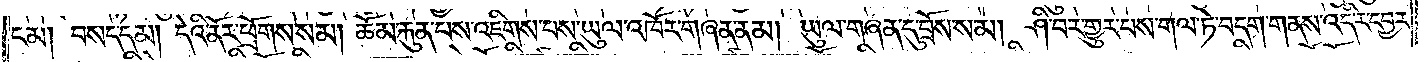ངམ། བསད་དམ། དེའི་ནོར་ཕྲོགས་སམ། ཆོམ་རྐུན་པས་འཇིགས་པས་ཡུལ་འཁོར་གཞན་ནམ། ཡུལ་གཞན་དུ་བྲོས་སམ། ཤི་བར་གྱུར་པས་གལ་ཏེ་བདག་གནས་འདིར་དབྱར་
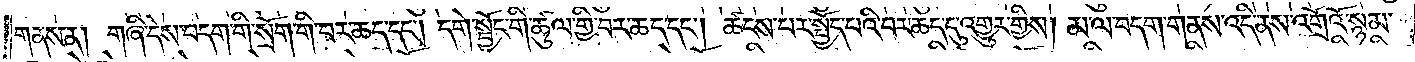གནས་ན། གཞི་དེས་བདག་གི་སྲོག་གི་བར་ཆད་དང༌། དགེ་སྦྱོང་གི་ཚུལ་གྱི་བར་ཆད་དང༌། ཚངས་པར་སྤྱོད་པའི་བར་ཆད་དུ་འགྱུར་གྱིས། མ་ལ་བདག་གནས་འདི་ནས་འགྲོའོ་སྙམ་
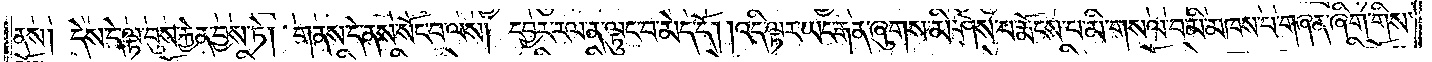ནས། དེས་དེ་ལྟ་བུས་རྐྱེན་བྱས་ཏེ། གནས་དེ་ནས་སོང་བ་ལས། དབྱར་རལ་ན་ལྟུང་བ་མེད་དོ། །འདི་ལྟར་ཡང་རྒན་ཞུགས་མི་ཤེས་པ་རྨོངས་པ་མི་གསལ་བ་མི་མཁས་པ་གཞན་ཞིག་གིས་
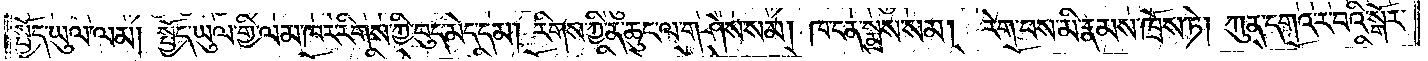སྤྱོད་ཡུལ་ལམ། སྤྱོད་ཡུལ་གྱི་ལམ་ཁར་རིགས་ཀྱི་བུད་མེད་དམ། རིགས་ཀྱི་ན་ཆུང་ལ་གཤེས་སམ། ཁ་ངན་སྨྲས་སམ། རེག་པས་མི་རྣམས་ཁྲོས་ཏེ། ཀུན་དགའ་ར་བའི་སྒོར་
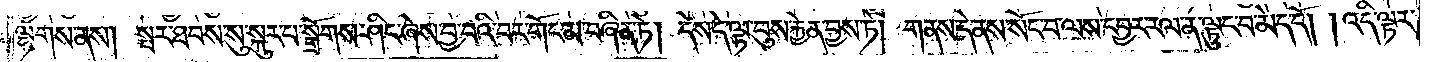ལྷགས་ནས། སྤར་ཐབས་སུ་སྐུར་བ་སྒྲོགས་ཤིང་ཞེས་བྱ་བའི་བར་གོང་མ་བཞིན་ཏེ། དེས་དེ་ལྟ་བུས་རྐྱེན་བྱས་ཏེ། གནས་དེ་ནས་སོང་བ་ལས་དབྱར་རལ་ན་ལྟུང་བ་མེད་དོ། །འདི་ལྟར་
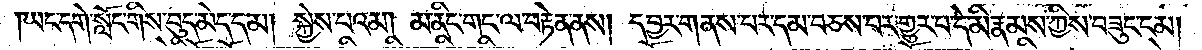ཡང་དགེ་སློང་གིས་བུད་མེད་དམ། སྐྱེས་པའམ། མ་ནིང་གང་ལ་བརྟེན་ནས། དབྱར་གནས་པར་དམ་བཅས་པར་གྱུར་པ་དེ་མི་རྣམས་ཀྱིས་བཟུང་ངམ།
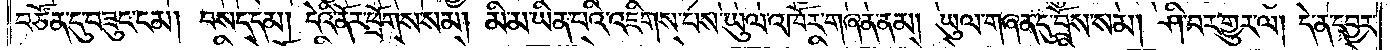བཙོན་དུ་བཟུང་ངམ། བསད་དམ། དེའི་ནོར་ཕྲོགས་སམ། མི་མ་ཡིན་པའི་འཇིགས་པས་ཡུལ་འཁོར་གཞན་ནམ། ཡུལ་གཞན་དུ་བྲོས་སམ། ཤི་བར་གྱུར་ལ། དེ་ན་དབྱར་
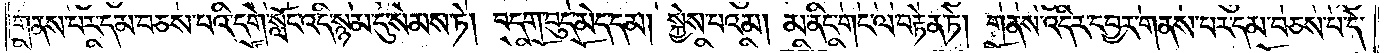གནས་པར་དམ་བཅས་པའི་དགེ་སློང་འདི་སྙམ་དུ་སེམས་ཏེ། བདག་བུད་མེད་དམ། སྐྱེས་པའམ། མ་ནིང་གང་ལ་བརྟེན་ཏེ། གནས་འདིར་དབྱར་གནས་པར་དམ་བཅས་པ་དེ་
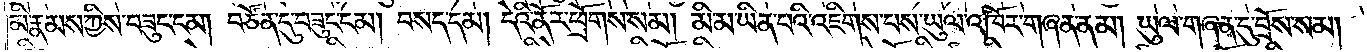མི་རྣམས་ཀྱིས་བཟུང་ངམ། བཙོན་དུ་བཟུང་ངམ། བསད་དམ། དེའི་ནོར་ཕྱོགས་སམ། མི་མ་ཡིན་པའི་འཇིགས་པས་ཡུལ་འཁོར་གཞན་ནམ། ཡུལ་གཞན་དུ་བྲོས་སམ།
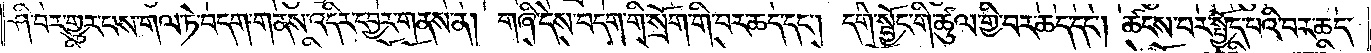ཤི་བར་གྱུར་པས་གལ་ཏེ་བདག་གནས་འདིར་དབྱར་གནས་ན། གཞི་དེས་བདག་གི་སྲོག་གི་བར་ཆད་དང༌། དགེ་སྦྱོང་གི་ཚུལ་གྱི་བར་ཆད་དང༌། ཚངས་པར་སྤྱོད་པའི་བར་ཆད་
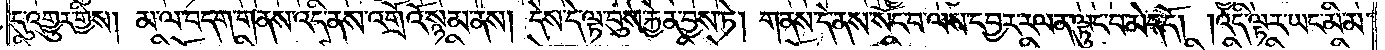དུ་འགྱུར་གྱིས། མ་ལ་བདག་གནས་འདི་ནས་འགྲོའོ་སྙམ་ནས། དེས་དེ་ལྟ་བུས་རྐྱེན་བྱས་ཏེ། གནས་དེ་ནས་སོང་བ་ལས་དབྱར་རལ་ན་ལྟུང་བ་མེད་དོ། །འདི་ལྟར་ཡང་མི་མ་
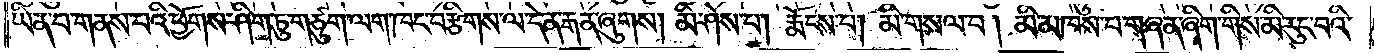ཡིན་པ་གནས་པའི་ཕྱོགས་ཤིག་ཏུ་གཙུག་ལག་ཁང་བརྩིགས་ལ་དེ་ན་རྒན་ཞུགས། མི་ཤེས་པ། རྨོངས་པ། མི་གསལ་བ། མི་མཁས་པ་གཞན་ཞིག་གིས་མི་རུང་བའི་
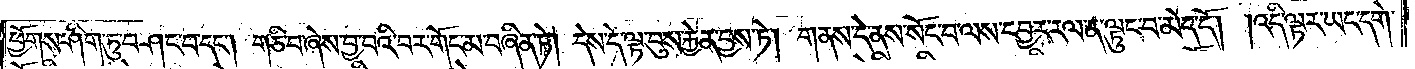ཕྱོགས་ཤིག་ཏུ་བཤང་པ་དང༌། གཅི་བ་ཞེས་བྱ་བའི་བར་གོང་མ་བཞིན་ཏེ། དེས་དེ་ལྟ་བུས་རྐྱེན་བྱས་ཏེ། གནས་དེ་ནས་སོང་བ་ལས་དབྱར་རལ་ན་ལྟུང་བ་མེད་དོ། །འདི་ལྟར་ཡང་དགེ་
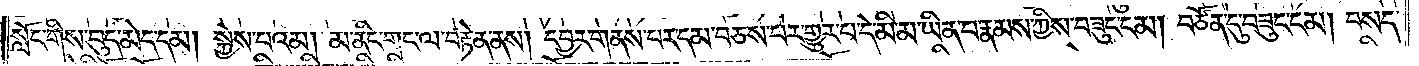སློང་གིས་བུད་མེད་དམ། སྐྱེས་པའམ། མ་ནིང་གང་ལ་བརྟེན་ནས། དབྱར་གནས་པར་དམ་བཅས་པར་གྱུར་པ་དེ་མི་མ་ཡིན་པ་རྣམས་ཀྱིས་བཟུང་ངམ། བཙོན་དུ་བཟུང་ངམ། བསད་
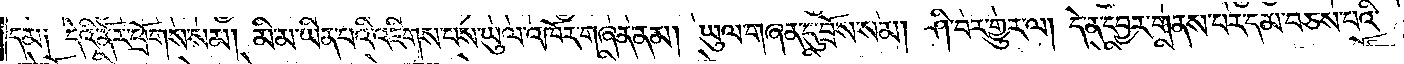དམ༑ དེའི་ནོར་ཕྲོགས་སམ། མི་མ་ཡིན་པའི་འཇིགས་པས་ཡུལ་འཁོར་གཞན་ནམ། ཡུལ་གཞན་དུ་བྲོས་སམ། ཤི་བར་གྱུར་ལ། དེ་ན་དབྱར་གནས་པར་དམ་བཅས་པའི་
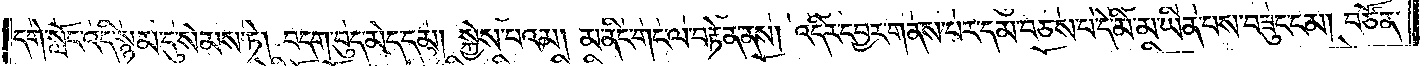དགེ་སློང་འདི་སྙམ་དུ་སེམས་ཏེ། བདག་བུད་མེད་དམ། སྐྱེས་པའམ། མ་ནིང་གང་ལ་བརྟེན་ནས། འདིར་དབྱར་གནས་པར་དམ་བཅས་པ་དེ་མི་མ་ཡིན་པས་བཟུང་ངམ། བཙོན་
